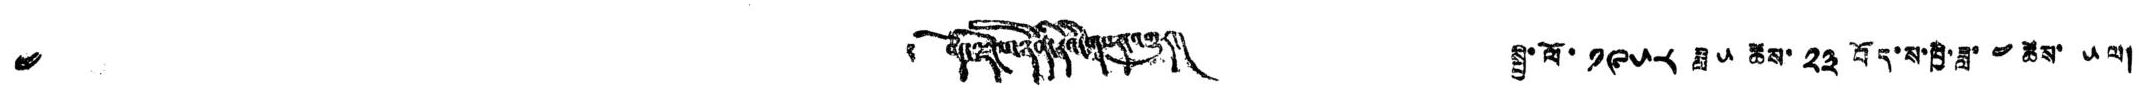༤ ༄ བོད་ལྗོངས་ཉིན་རེའི་གསར་འགྱུར། སྤྱི་ལོ་ ༡༩༥༨ ཟླ་ ༥ ཚེས་ ༢༣ བོད་ས་ཁྱི་ཟླ་ ༤ ཚེས་ ༥ ལ།
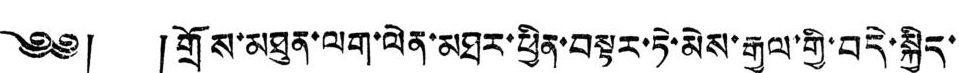༄༅། །གྲོས་མཐུན་ལག་ལེན་མཐར་ཕྱིན་བསྟར་ཏེ་མེས་རྒྱལ་གྱི་བདེ་སྐྱིད་
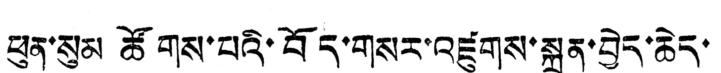ཕུན་སུམ ཚོགས་པའི་བོད་གསར་འཛུགས་སྐྲུན་བྱེད་ཆེད་
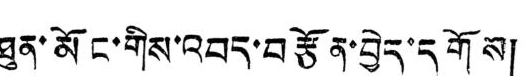ཐུན་མོང་གིས་འབད་བརྩོན་བྱེད་དགོས།
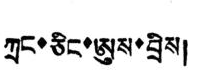ཀྲང་ཅིང་ཨུས་བྲིས།
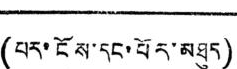(པར་ངོས་དང་པོར་མཐུད)
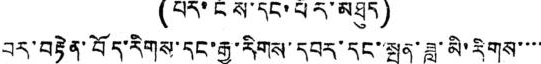བར་བརྟེན་བོད་རིགས་དང་རྒྱ་རིགས་དབར་དང་སྤུན་ཟླ་མི་རིགས་་་་
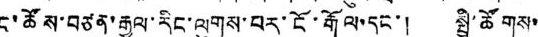ང་ཚོས་བཙན་རྒྱལ་རིང་ལུགས་བར་ངོ་རྒོལ་དང་། སྤྱི་ཚོགས་
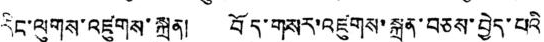རིང་ལུགས་འཛུགས་སྐྲུན། བོད་གསར་འཛུགས་སྐྲུན་བཅས་བྱེད་པའི
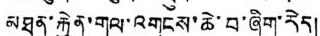མཐུན་རྐྱེན་གལ་འགངས་ཆེ་བ་ཞིག་རེད།
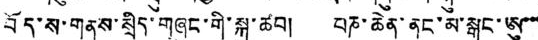བོད་ས་གནས་སྲིད་གཞུང་གི་སྐུ་ཚབ། པཎ་ཆེན་ནང་མ་སྒང་ཨུ་་་
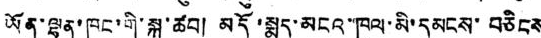ཡོན་ལྷན་ཁང་གི་སྐུ་ཚབ། མདོ་སྨད་མངའ་ཁུལ་མི་དམངས་བཅིངས
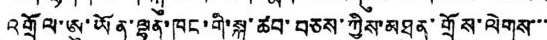འགྲོལ་ཨུ་ཡོན་ལྷན་ཁང་གི་སྐུ་ཚབ་བཅས་ཀྱིས་མཐུན་གྲོས་ལེགས་་་
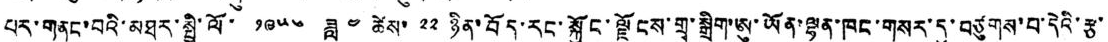པར་གནང་བའི་མཐར་སྤྱི་ལོ་ ༡༩༥༦ ཟླ ༤ ཚེས་ ༢༢ ཉིན་བོད་རང་སྐྱོང་ལྗོངས་གྲྭ་སྒྲིག་ཨུ་ཡོན་ལྷན་ཁང་གསར་དུ་བཙུགས་པ་དེའི་རྩ་
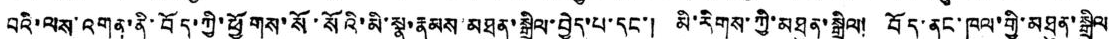བའི་ལས་འགན་ནི་བོད་ཀྱི་ཕྱོགས་སོ་སོའི་མི་སྣ་རྣམས་མཐུན་སྒྲིལ་བྱེད་པ་དང་། མི་རིགས་ཀྱི་མཐུན་སྒྲིལ། བོད་ནང་ཁུལ་གྱི་མཐུན་སྒྲིལ
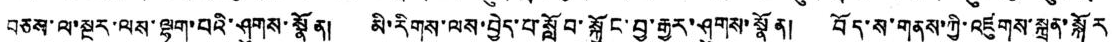བཅས་ལ་སྔར་ལས་ལྷག་པའི་ཤུགས་སྣོན། མི་རིགས་ལས་བྱེད་པ་སློབ་སྐྱོང་བྱ་རྒྱུར་ཤུགས་སྣོན། བོད་ས་གནས་ཀྱི་འཛུགས་སྐྲུན་སྐོར
